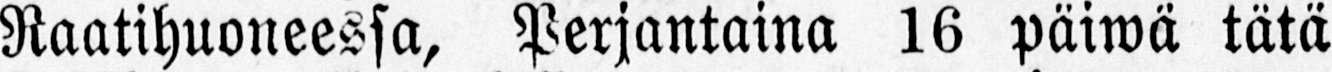Raatihuoneessa, Perjantaina 16 päiwä tätä
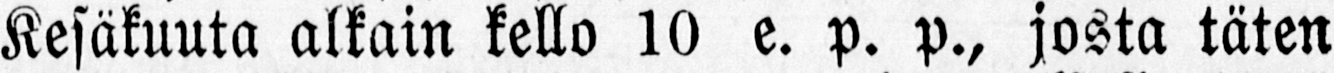Kesäkuuta alkain kello 10 e. p. p., josta täten
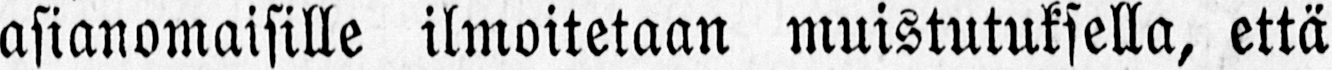asianomaisille ilmoitetaan muistutuksella, että
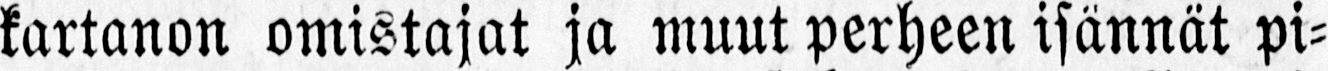kartanon omistajat ja muut perheen isännät pi-
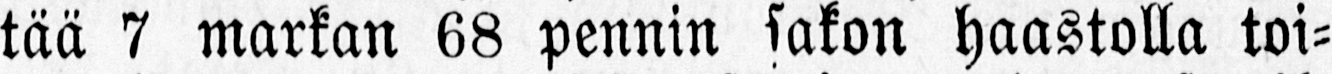tää 7 markan 68 pennin lakon haastolla toi-
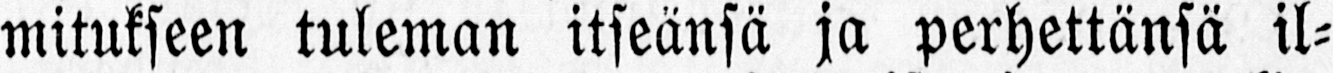mitukseen tuleman itseänsä ja perhettänsä il-
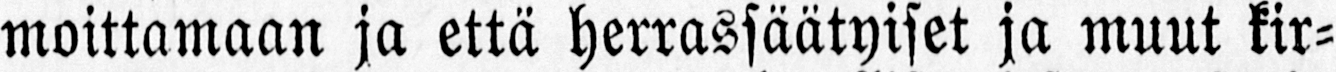moittamaan ja että herrassäätyiset ja muut kir-
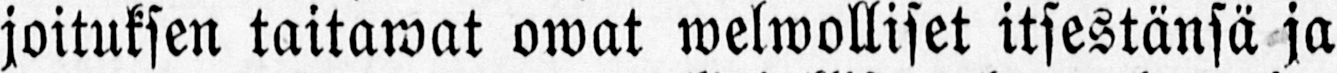joituksen taitawat owat welwolliset itsestänsä ja
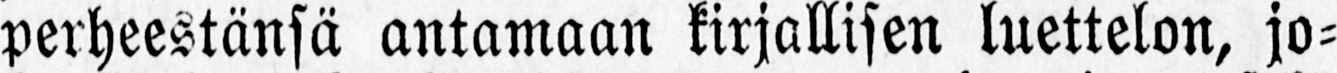perheestänsä antamaan kirjallisen luettelon, jo-
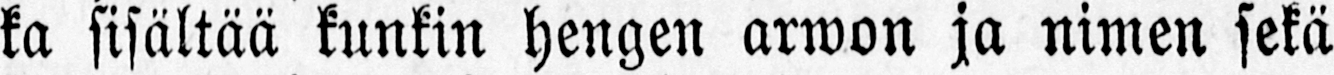ka sisältää kunkin hengen arwon ja nimen sekä
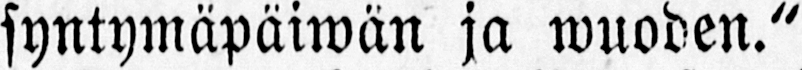syntymäpäiwän ja wuoden."
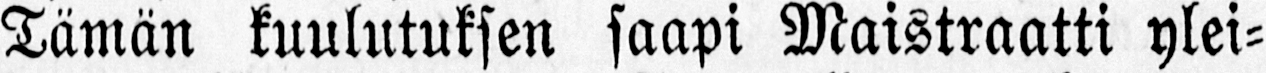Tämän kuulutuksen saapi Maistraatti ylei-
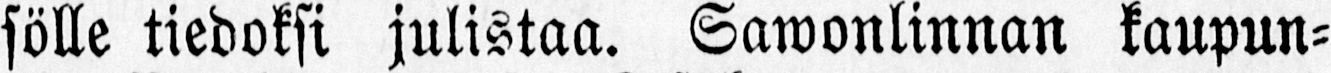sölle tiedoksi julistaa. Sawonlinnan kaupun-
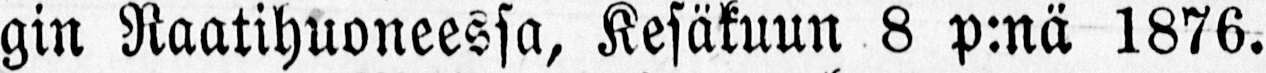gin Raatihuoneessa, Kesäkuun 8 p:nä 1876.
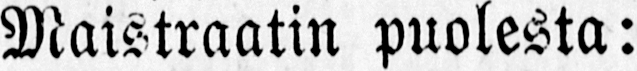Maistraatin puolesta:
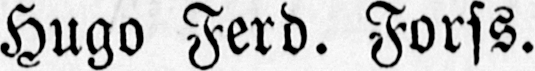Hugo Ferd. Forss.
